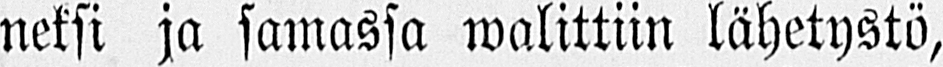neksi ja samassa walittiin lähetystö,
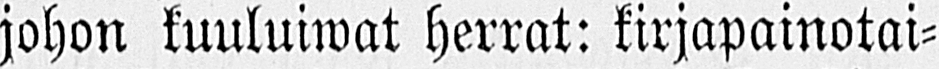johon kuuluiwat herrat: kirjapainotai-
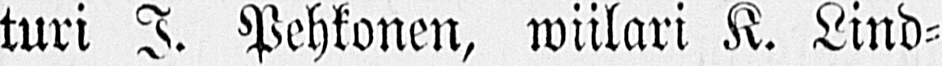turi I. Pehkonen, wiilari K. Lind-
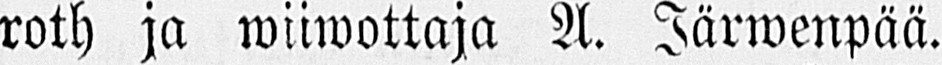roth ja wiiwottaja A. Järwenpää.
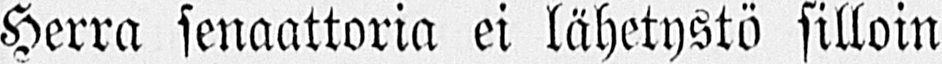Herra senaattoria ei lähetystö silloin
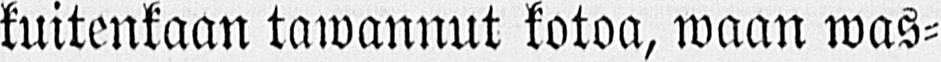kuitenkaan tawannut kotoa, waan was-
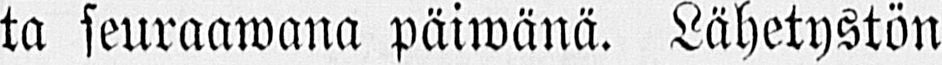ta seuraawana päiwänä. Lähetystön
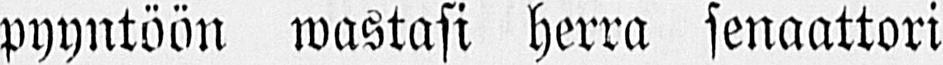pyyntöön wastasi herra senaattori
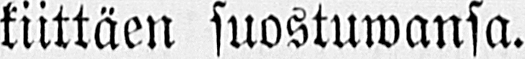kiittäen suostuwansa.
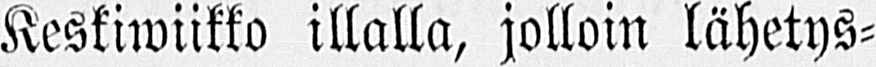Keskiwiikko illalla, jolloin lähetys-
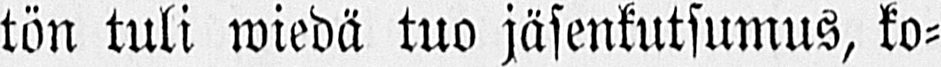tön tuli wiedä tuo jäsenkutsumus, ko-
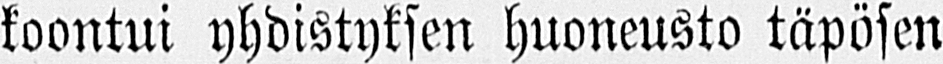koontui yhdistyksen huoneusto täpösen
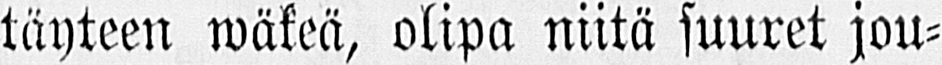täyteen wäkeä, olipa niitä suuret jou-
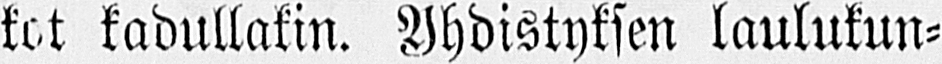kot kadullakin. Yhdistyksen laulukun-
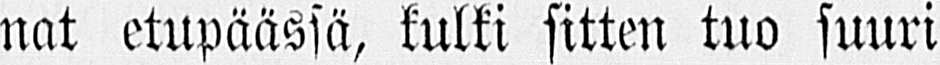nat etupäässä, kulki sitten tuo suuri
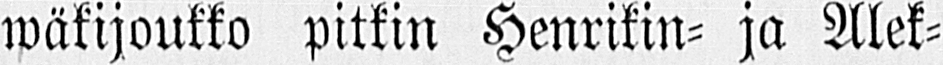wäkijoukko pitkin Henrikin- ja Alek-
